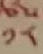༡༨
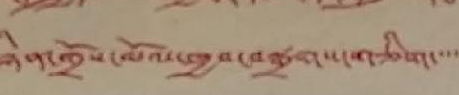ཉིན་གྲོས་མོལ་ཁྱབ་བསྒྲགས་གཅིག་་་་་
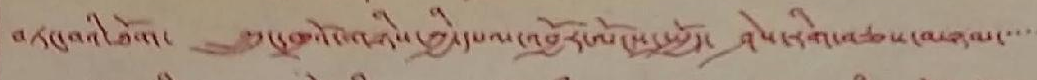བཏང་བའི་ཐོག་ ཀྲུང་ཁྲའོ་གཉིས་ཀྱི་དཔལ་འབྱོར་ལོངས་སྤྱོད་ ཤེས་རིག་བཅས་མཉམ་་་་་
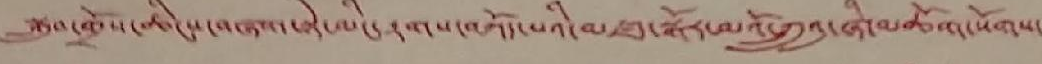སྒྲུབ་གྲོས་ཆིངས་བཞག་སྟེ་ལིང་རྟགས་བཀོད་པའི་མཛད་སྒོར་མའོ་ཀྲུའུ་ཞི་མཆོག་སོགས་
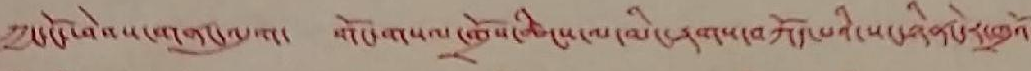ཀྱང་ངོ་ཕེབས་གནང་འདུག་ གོང་གསལ་གྲོས་ཆིངས་ལ་མིང་རྟགས་བཀོད་པའི་སང་ཉིན་དེར་ཁྲའོ་
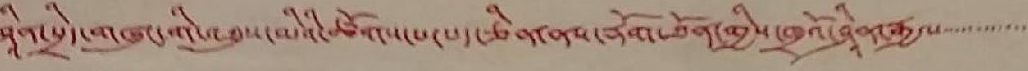ཤཱིན་སྲིད་གཞུང་གི་འཐུས་མིའི་ཚོགས་པ་པད་ཅིན་ནས་རྡོག་ཐོན་གྱིས་ཁྲའོ་ཤཱིན་རྒྱལ་་་་་་་་་་་་་་
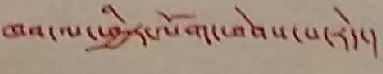ཁབ་ལ་ཕྱིར་ལོག་ཕེབས་པ་རེད་།
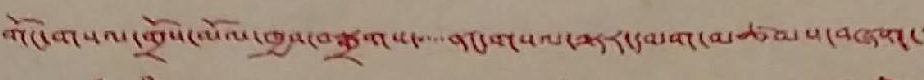གོང་གསལ་གྲོས་མོལ་ཁྱབ་བསྒྲགས་་་་་ནང་གསལ་ལྟར་དམག་མཚམས་བཞག་་་
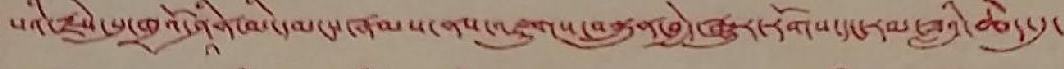པའི་རྗེས་སུ་གྲའོ་ཤཱིན་མི་དམངས་རྣམས་ནས་འཛུགས་བསྐྲུན་བྱེད་རྒྱུར་རོགས་དང་རམ་ཟླའི་ཆེད་དུ་
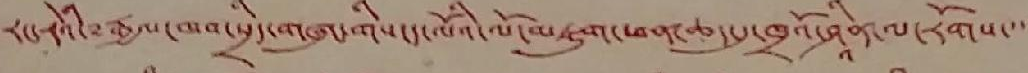རང་རེའི་༸རྒྱལ་ཁབ་སྲིད་གཞུང་གིས་ད་ལོའི་ལོ་མཇུག་ཕན་ཆད་དུ་ཁྲའོ་ཤཱིན་ལ་རོགས་་་་
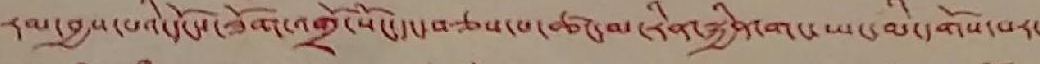རམ་བྱས་པའི་དངོས་ཟོག་འགྲོ་སོང་དང་བཅས་པ་ཚང་མ་རིན་སྐྱིན་གང་ཡང་མི་དགོས་པར་
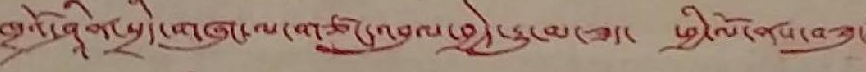ཁྲའོ་ཤཱིན་སྲིད་གཞུང་ལ་གཙང་འབུལ་བྱེད་རྒྱུ་མ་ཟད་ ཕྱི་ལོ་ནས་བཟུང་
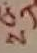ས
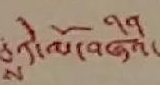ཏེ་ལོ་བཞིའི་
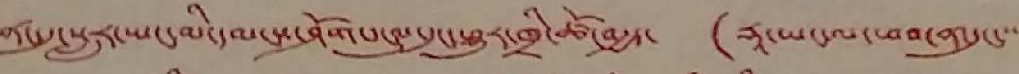ནང་དུ་སླར་ཡང་མི་དམངས་ཤོགས་པ་དུང་ཕྱུར་ཁྲི་ཚོ་བརྒྱད་ (རྡཱ་ཡང་ལ་ཕབ་ན་དུང་་་་
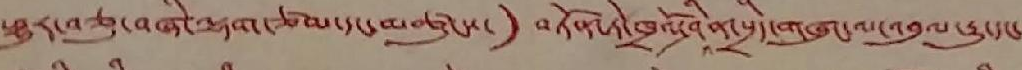ཕྱུར་བཅུ་བཞི་ལྷག་ཙམ་དང་མཚུངས་) བཏོན་ཏེ་ཁྲའོ་ཤཱིན་སྲིད་གཞུང་ལ་འབུལ་རྒྱུ་དང་
